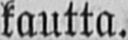kautta.
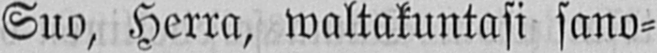Suo, Herra, waltakuntasi sano-
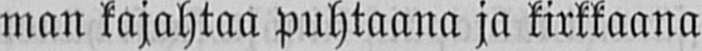man kajahtaa puhtaana ja kirkkaana
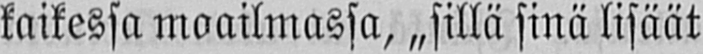kaikessa maailmassa, „sillä sinä lisäät
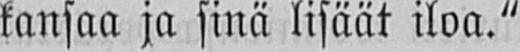kansaa ja sinä lisäät iloa."
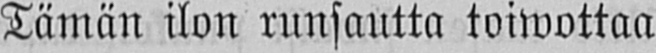Tämän ilon runsautta toiwottaa
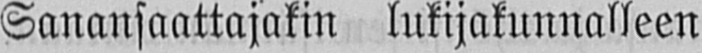Sanansaattajakin lukijakunnalleen
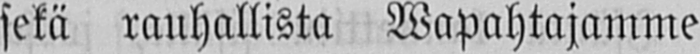sekä rauhallista Wapahtajamme
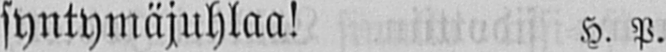syntymäjuhlaa! H. P.
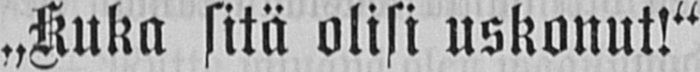„Kuka sitä olisi uskonut!"
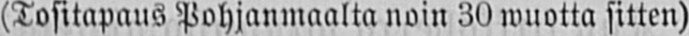(Tositapaus Pohjanmaalta noin 30 wuotta sitten).
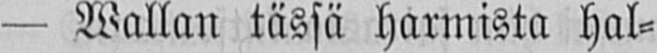— Wallan tässä harmista hal-
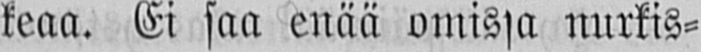keaa. Ei saa enää omissa nurkis-
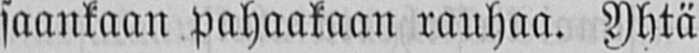saankaan pahaakaan rauhaa. Yhtä
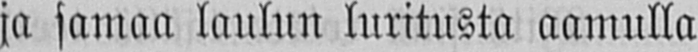ja samaa laulun luritusta aamulla
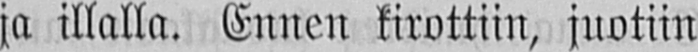ja illalla. Ennen kirottiin, juotiin
